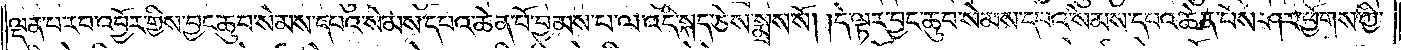ལྡན་པ་རབ་འབྱོར་གྱིས་བྱང་ཆུབ་སེམས་དཔའ་སེམས་དཔའ་ཆེན་པོ་བྱམས་པ་ལ་འདི་སྐད་ཅེས་སྨྲས་སོ། །དེ་ལྟར་བྱང་ཆུབ་སེམས་དཔའ་སེམས་དཔའ་ཆེན་པོས་ཤར་ཕྱོགས་ཀྱི་
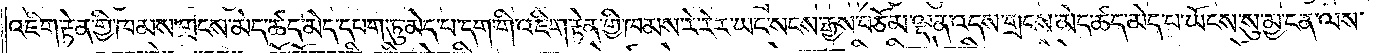འཇིག་རྟེན་གྱི་ཁམས་གྲངས་མེད་ཚད་མེད་དཔག་ཏུ་མེད་བདག་གི་འཇིག་རྟེན་གྱི་ཁམས་རེ་རེར་ཡང་སངས་རྒྱས་བཅོམ་ལྡན་འདས་གྲངས་མེད་ཚད་མེད་པ་ཡོངས་སུ་མྱ་ངན་ལས་
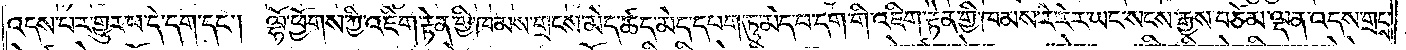འདས་པར་གྱུར་པ་དེ་དག་དང༌། ལྷོ་ཕྱོགས་ཀྱི་འཇིག་རྟེན་གྱི་ཁམས་གྲངས་མེད་ཚད་མེད་དཔག་ཏུ་མེད་པ་དག་གི་འཇིག་རྟེན་གྱི་ཁམས་རེ་རེར་ཡང་སངས་རྒྱས་བཅོམ་ལྡན་འདས་གྲངས་
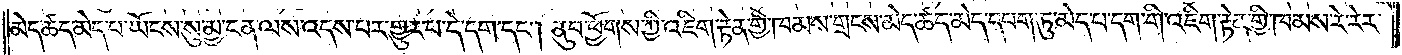མེད་ཚད་མེད་པ་ཡོངས་སུ་མྱ་ངན་ལས་འདས་པར་གྱུར་པ་དེ་དག་དང༌། ནུབ་ཕྱོགས་ཀྱི་འཇིག་རྟེན་གྱི་ཁམས་གྲངས་མེད་ཚད་མེད་དཔག་ཏུ་མེད་པ་དག་གི་འཇིག་རྟེན་གྱི་ཁམས་རེ་རེར་
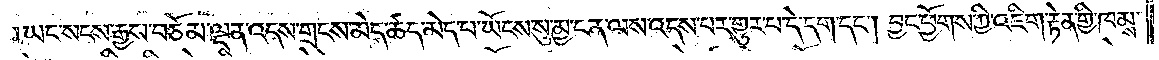ཡང་སངས་རྒྱས་བཅོམ་ལྡན་འདས་གྲངས་མེད་ཚད་མེད་པ་ཡོངས་སུ་མྱ་ངན་ལས་འདས་པར་གྱུར་པ་དེ་དག་དང༌། བྱང་ཕྱོགས་ཀྱི་འཇིག་རྟེན་གྱི་ཁམས་
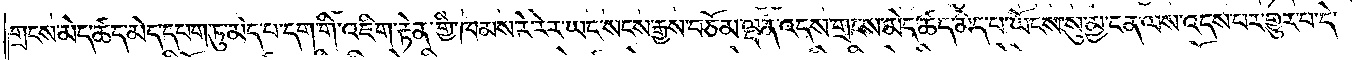གྲངས་མེད་ཚད་མེད་དཔག་ཏུ་མེད་པ་དག་གི་འཇིག་རྟེན་གྱི་ཁམས་རེ་རེར་ཡང་སངས་རྒྱས་བཅོམ་ལྡན་འདས་གྲངས་མེད་ཚད་མེད་པ་ཡོངས་སུ་མྱ་ངན་ལས་འདས་བར་གྱུར་པ་དེ་
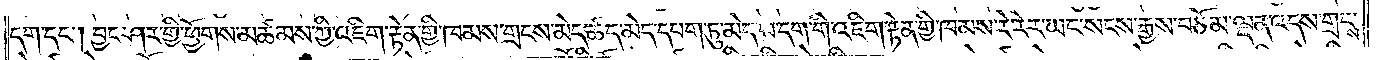དག་དང༌། བྱང་ཤར་གྱི་ཕྱོགས་མཚམས་ཀྱི་འཇིག་རྟེན་གྱི་ཁམས་གྲངས་མེད་ཚད་མེད་དཔག་ཏུ་མེད་པ་དག་གི་འཇིག་རྟེན་གྱི་ཁམས་རེ་རེར་ཡང་སངས་རྒྱས་བཅོམ་ལྡན་འདས་གྲངས་
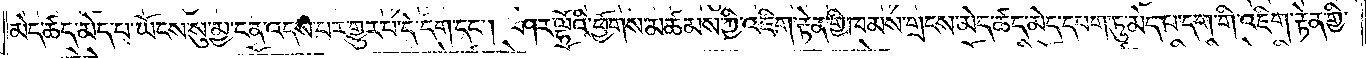མེད་ཚད་མེད་པ་ཡོངས་སུ་མྱ་ངན་ལས་འདས་པར་གྱུར་པ་དེ་དག་དང༌། ཤར་ལྷོའི་ཕྱོགས་མཚམས་ཀྱི་འཇིག་རྟེན་གྱི་ཁམས་གྲངས་མེད་ཚད་མེད་དཔག་ཏུ་མེད་པ་དག་གི་འཇིག་རྟེན་གྱི་
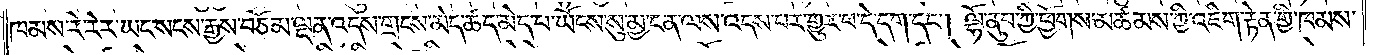ཁམས་རེ་རེར་ཡང་སངས་རྒྱས་བཅོམ་ལྡན་འདས་གྲངས་མེད་ཚད་མེད་པ་ཡོངས་སུ་མྱ་ངན་ལས་འདས་པར་གྱུར་པ་དེ་དག་དང༌། ལྷོ་ནུབ་ཀྱི་ཕྱོགས་མཚམས་ཀྱི་འཇིག་རྟེན་གྱི་ཁམས་
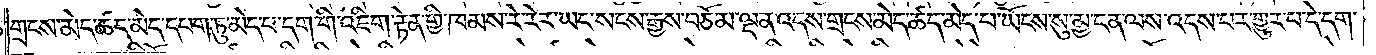གྲངས་མེད་ཚད་མེད་དཔག་ཏུ་མེད་པ་དག་གི་འཇིག་རྟེན་གྱི་ཁམས་རེ་རེར་ཡང་སངས་རྒྱས་བཅོམ་ལྡན་འདས་གྲངས་མེད་ཚད་མེད་པ་ཡོངས་སུ་མྱ་ངན་ལས་འདས་པར་གྱུར་པ་དེ་དག་
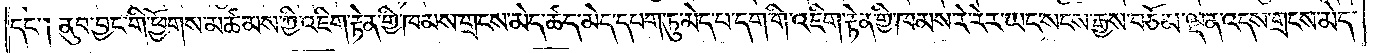དང༌། ནུབ་བྱང་གི་ཕྱོགས་མཚམས་ཀྱི་འཇིག་རྟེན་གྱི་ཁམས་གྲངས་མེད་ཚད་མེད་དཔག་ཏུ་མེད་པ་དག་གི་འཇིག་རྟེན་གྱི་ཁམས་རེ་རེར་ཡང་སངས་རྒྱས་བཅོམ་ལྡན་འདས་གྲངས་མེད་
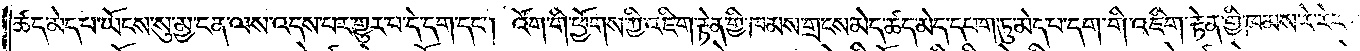ཚད་མེད་པ་ཡོངས་སུ་མྱ་ངན་ལས་འདས་པར་གྱུར་པ་དེ་དག་དང༌། འོག་གི་ཕྱོགས་ཀྱི་འཇིག་རྟེན་གྱི་ཁམས་གྲངས་མེད་ཚད་མེད་དཔག་ཏུ་མེད་པ་དག་གིས་འཇིག་རྟེན་གྱི་ཁམས་རེ་རེར་ཡང་
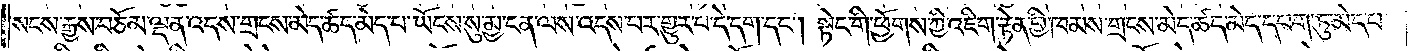སངས་རྒྱས་བཅོམ་ལྡན་འདས་གྲངས་མེད་ཚད་མེད་པ་ཡོངས་སུ་མྱ་ངན་ལས་འདས་པར་གྱུར་པ་དེ་དག་དང༌། སྟེང་གི་ཕྱོགས་ཀྱི་འཇིག་རྟེན་གྱི་ཁམས་གྲངས་མེད་ཚད་མེད་དཔག་ཏུ་མེད་པ་
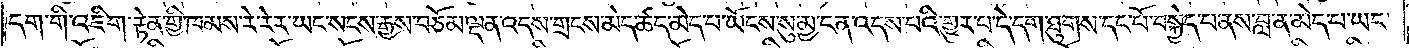དག་གིས་འཇིག་རྟེན་གྱི་ཁམས་རེ་རེར་ཡང་སངས་རྒྱས་བཅོམ་ལྡན་འདས་གྲངས་མེད་ཚད་མེད་པ་ཡོངས་སུ་མྱ་ངན་ལས་འདས་པར་གྱུར་པ་དེ་དག་ཐུགས་དང་པོ་བསྐྱེད་པ་ནས་བླ་ན་མེད་པ་ཡང་
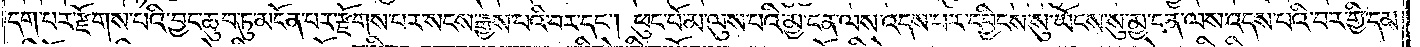དག་པར་རྫོགས་པའི་བྱང་ཆུབ་ཏུ་མངོན་པར་རྫོགས་པར་སངས་རྒྱས་པའི་བར་དང༌། ཕུང་པོ་མ་ལུས་པའི་མྱ་ངན་ལས་འདས་པའི་དབྱིངས་སུ་ཡོངས་སུ་མྱ་ངན་ལས་འདས་པའི་བར་གྱི་དམ་
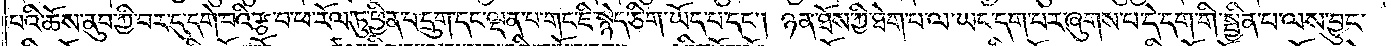པའི་ཆོས་ནུབ་ཀྱི་བར་དུ་དགེ་བའི་རྩ་བ་ཕ་རོལ་ཏུ་ཕྱིན་པ་དྲུག་དང་ལྡན་པ་གང་ཇི་སྙེད་ཅིག་ཡོད་པ་དང༌། ཉན་ཐོས་ཀྱི་ཐེག་པ་ལ་ཡང་དག་པར་ཞུགས་པ་དེ་དག་གིས་སྦྱིན་པ་ལས་བྱུང་
